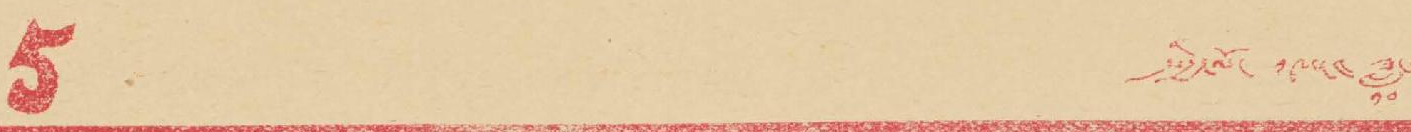5 སྤྱི་ལོ་ ༡༩༥༤ ཟླ་
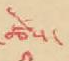ཚེས་
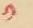༡
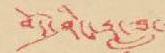བོད་ཤིང་རྟ་ཟླ་
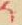༨
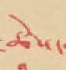ཚེས་
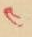༤
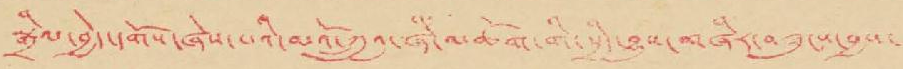སྒྲིལ་བྱེད་དགོས་ཞེས་པའི་མོའོ་ཀྲུའུ་ཞི་མཆོག་གི་སྲིད་བྱུས་བཞིར་བཟུངས་བྱས་
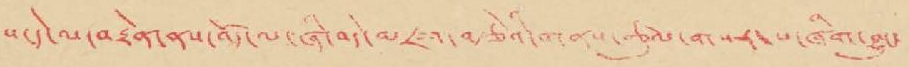པ་དེ་ལ་བརྟེན་ནས་བོད་ལ་ཞི་བདེ་མཛའ་བརྩེའི་གནས་ཚུལ་གསར་པ་ཞིག་བྱུང་
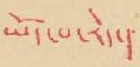ཡོད་པ་རེད་།
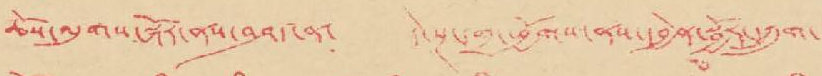ཆོས་ལུགས་སྐོར་ནས་བཤད་ན་ དེ་སྔ་གྲ་ཕྱོགས་ནས་དབྱེན་སྦྱོར་དཀྲུག་
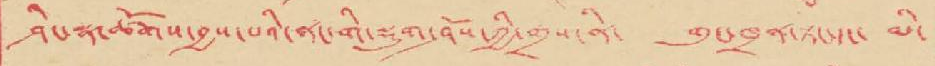ཤིང་སྣ་ཚོགས་བྱས་པའི་ནང་གི་སྡུག་ཤོས་ཀྱི་གྲས་ནི་ གུང་ཁྲན་ཏང་དང་ མི་
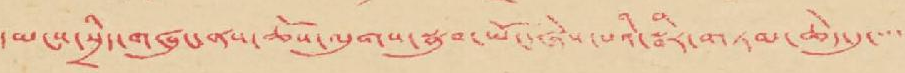དམངས་སྲིད་གཞུང་ནས་ཆོས་ལུགས་སྣུབ་ཡོང་ཞེས་པའི་སྦིར་གཏམ་ཆེད་དུ་་་་
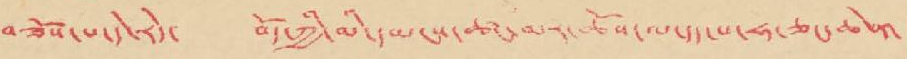བཟོས་པ་དེ་རེད་ བོད་ཀྱི་མི་དམངས་ཚང་མར་ཆོས་ལ་དད་པ་ཧ་ཅང་ཆེན་
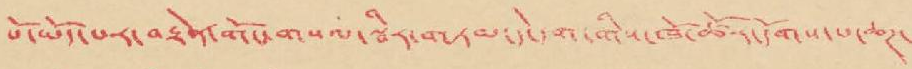པོ་ཡོད་པར་བརྟེན་གོང་གསལ་སྦིར་གཏམ་དེ་དག་གིས་ཁོ་ཚོར་དོག་པ་ཆཊ་
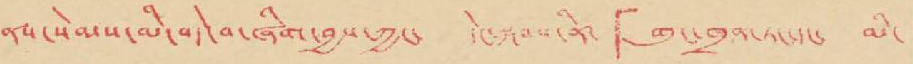ནས་སེམས་མི་བདེ་བ་ཞིག་བྱས་ཀྱང་ དེང་སྐབས་ནི་「གུང་ཁྲན་ཏང་དང་ མི་
